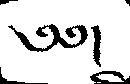༄༅།
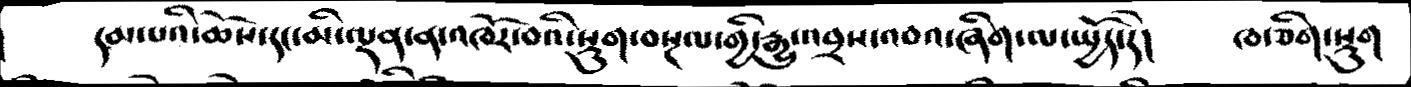དམ་པའི་ཆོས་དང་མི་ལྡན་ན་འཁོར་བའི་སྡུག་བསྔལ་གྱི་རྒྱུ་འབྲས་འབའ་ཞིག་ལ་སྤྱོད་དེ།   ཁ་ཅིག་སྡུག
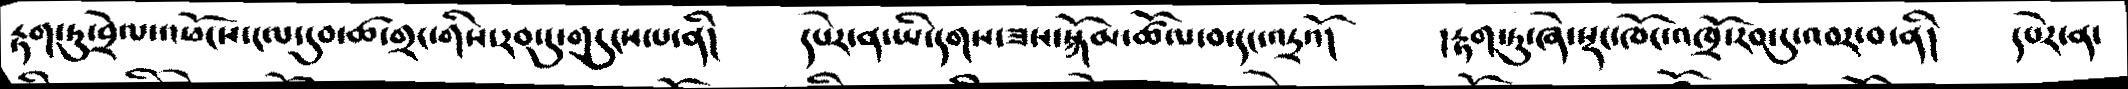རྟག་ཏུ་བྲེལ་འཕོངས་ངལ་དུབ་ཚ་གྲང་གིས་རབ་དུ་གདུངས་པ་ནི།   དཔེར་ན་ཡི་དགས་ཟས་སྐོམ་ཚོལ་བ་དང་འདྲའོ།   །རྟག་ཏུ་ཞེ་སྡང་ཁོང་འཁྲོ་རབ་དུ་འབར་བ་ནི།  དཔེར་ན་
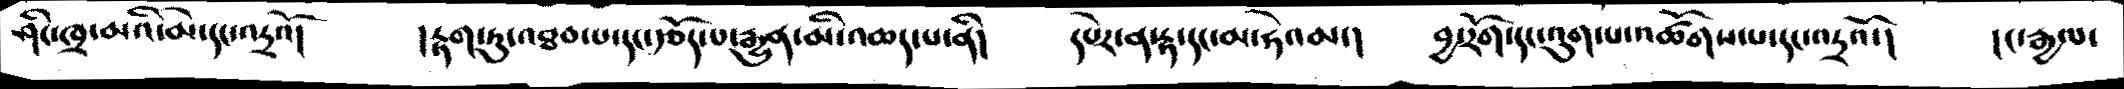ཤིང་ཁྲ་མའི་མེ་དང་འདྲའོ།   །རྟག་ཏུ་འཐབ་པ་དང་རྩོད་པ་རྒྱུན་མི་འཆད་པ་ནི།   དཔེར་ན་རྟ་དང་མ་ཧེའམ་།   བྱ་རོག་དང་འུག་པ་འཚོགས་པ་དང་འདྲའོ་།    །ང་རྒྱལ་
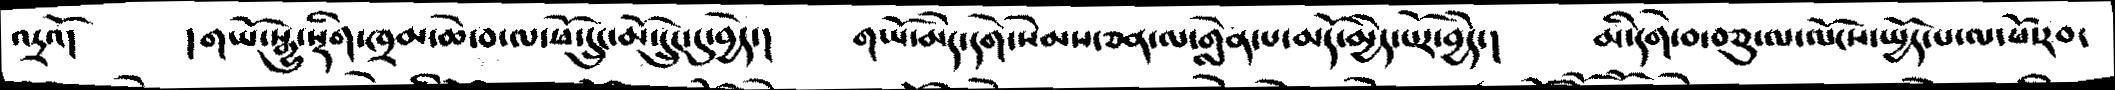འདྲའོ།   ། གཡོ་སྒྱུ་སྡིག་ཁྲམ་ཆེ་བ་ལ་ཕོ་དྲུང་མོ་དྲུང་དུ་བྱེད་།   གཡོ་མེད་དགེ་སེམས་ཅན་ལ་གླེན་པ་མདོ་མྱེད་པོར་བྱེད་།   མི་དགེ་བ་བཅུ་ལ་ལོངས་སྤྱོད་པ་ལ་ཕོ་རབ་
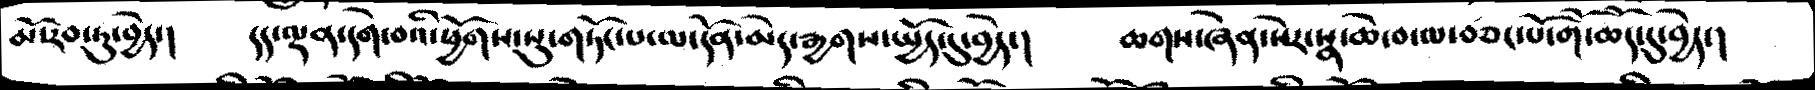མོ་རབ་ཏུ་བྱེད་།   དད་ལྡན་དགེ་བའི་ཕྱོགས་སུ་གཏོང་པ་ལ་དོན་མེད་རྒྱགས་སྤྱོད་དུ་བྱེད་།   ཆགས་ཞེན་སེར་སྣ་ཆེ་བ་ལ་བཅང་པོ་གོ་ཆོད་དུ་བྱེད་།
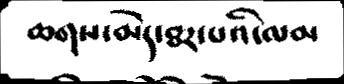ཆགས་མེད་ཐར་པའི་ལམ
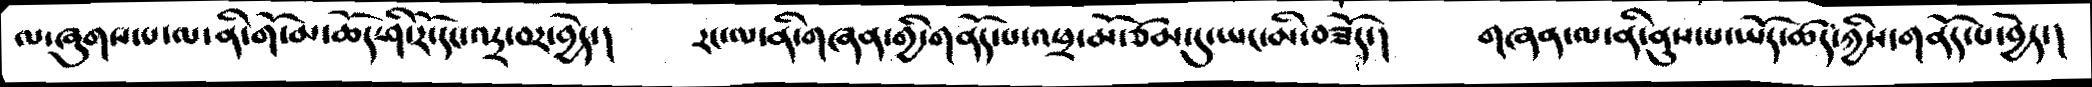ལ་ཞུགས་པ་ལ་ནི་གོ་མ་ཆོད་ཤི་རོ་དང་འདྲ་བར་བྱེད་།     རང་ལ་ནི་གཞན་གྱི་གནོད་པ་འཕྲ་མོ་ཙམ་དུ་ཡང་མི་བཟོད་།   གཞན་ལ་ནི་ནུས་པ་ཡོད་ཚད་ཀྱིས་གནོད་པ་བྱེད་།
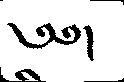༄༅།
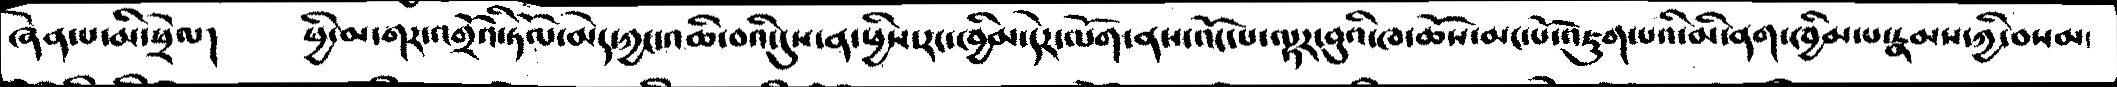ཞེན་པ་མི་ཕྲེལ།   ཕྱི་མ་གར་འགྲོའི་ཏོལ་མེད་ཀྱང་འཆི་བའི་དུས་ན་ཕྱིས་རང་ཁྱིམ་དེར་ལོག་ནས་འོང་པ་ལྟར་བུའི་ཁ་ཆོས་མང་པོ་འཇུག་པའི་མི་ནག་ཁྱིམ་པ་རྣམས་ཀྱི་བསམ་
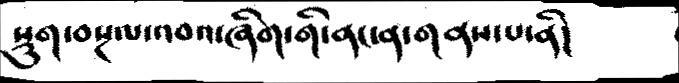སྡུག་བསྔལ་འབའ་ཞིག་གི་ནང་ན་གནས་པ་ནི།
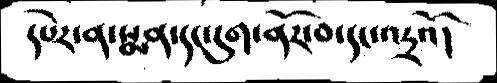དཔེར་ན་སྨན་དང་དུག་ནོར་བ་དང་འདྲའོ།
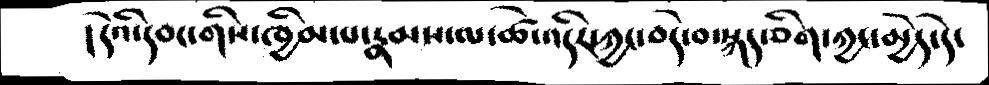། དེའི་དབང་གིས་ཁྱིམ་པ་རྣམས་ལ་ཚེ་འདིར་ཀྱང་བདེ་བ་སྐད་ཅིག་ཀྱང་མྱེད་དེ་
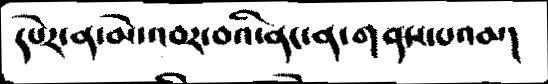དཔེར་ན་མེ་འབར་བའི་ནང་ན་གནས་པའམ།
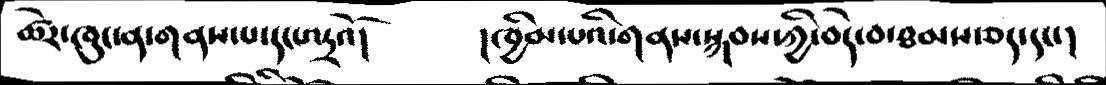ཚེར་ཁུང་ན་གནས་པ་དང་འདྲའོ།       །ཁྱིམ་པའི་གནས་སྐབས་ཀྱི་བདེ་བ་ཐམས་ཅད་དང་།
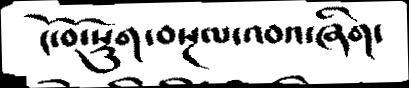ངོ་བོ་སྡུག་བསྔལ་འབའ་ཞིག་
